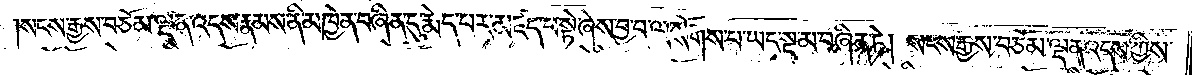སངས་རྒྱས་བཅོམ་ལྡན་འདས་རྣམས་ནི་མཁྱེན་བཞིན་དུ་རྨེད་པར་མཛད་པ་སྟེ་ཞེས་བྱ་བ་ལ་སོགས་པ་ཡང་སྔ་མ་བཞིན་ཏེ། སངས་རྒྱས་བཅོམ་ལྡན་འདས་ཀྱིས་
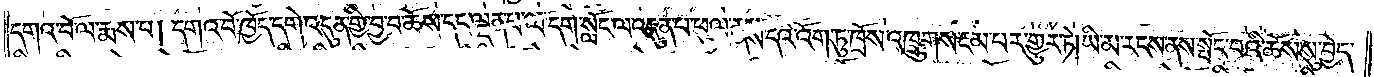དགའ་བོ་ལ་རྨས་པ། དགའ་བོ་ཁྱོད་དགེ་འདུན་གྱི་བྱ་བ་ཆོས་དང་ལྡན་པ་ལ་དགེ་སློང་ལ་འདུན་པ་ཕུལ་ནས་དེའི་འོག་ཏུ་ཁྲོས་འཁྲུགས་རྔམ་པར་གྱུར་ཏེ། ཡི་མ་རངས་ནས་སྤོང་བའི་ཆོས་སུ་བྱེད་
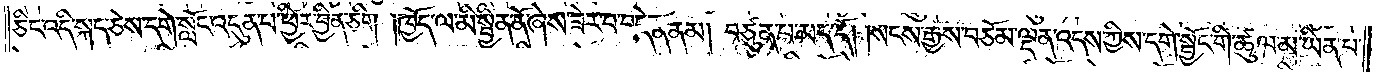ཅིང་འདི་སྐད་ཅེས་དགེ་སློང་འདུན་པ་ཕྱིར་བྱིན་ཅིག །ཁྱོད་ལ་མི་སྦྱིན་ནོ་ཞེས་ཟེར་བ་བདེན་ནམ། བཙུན་པ་མད་དོ། །སངས་རྒྱས་བཅོམ་ལྡན་འདས་ཀྱིས་དགེ་སྦྱོང་གི་ཚུལ་མ་ཡིན་པ་
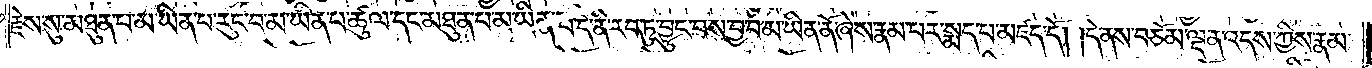རྗེས་སུ་མཐུན་པ་མ་ཡིན་པ་རུང་བ་མ་ཡིན་པ་ཚུལ་དང་མཐུན་པ་མ་ཡིན་པ་དེ་ནི་རབ་ཏུ་བྱུང་བས་བྱ་བ་མ་ཡིན་ནོ་ཞེས་རྣམ་པར་སྨད་པ་མཛད་དོ། །དེ་ནས་བཅོམ་ལྡན་འདས་ཀྱིས་རྣམ་
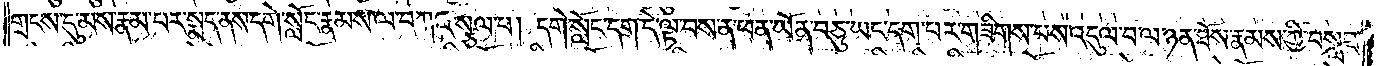གྲངས་དུ་མས་རྣམ་པར་སྨད་ནས་དགེ་སློང་རྣམས་ལ་བཀའ་སྩལ་པ། དགེ་སློང་དག་དེ་ལྟ་བས་ན་ཕན་ཡོན་བཅུ་ཡང་དག་པར་གཟིགས་པས་འདུལ་བ་ལ་ཉན་ཐོས་རྣམས་ཀྱི་བསླབ་
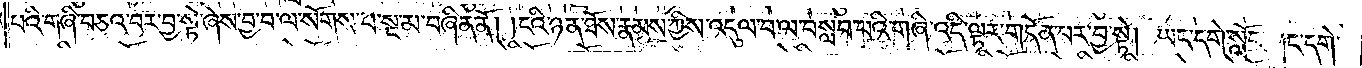པའི་གཞི་བཅའ་བར་བྱ་སྟེ་ཞེས་བྱ་བ་ལ་སོགས་པ་སྔ་མ་བཞིན་ནོ། །ངའི་ཉན་ཐོས་རྣམས་ཀྱིས་འདུལ་བ་ལ་བསླབ་པའི་གཞི་འདི་ལྟར་གདོན་པར་བྱ་སྟེ། ཡང་དགེ་སློང་གང་དགེ་
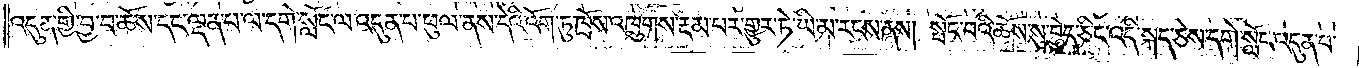འདུན་གྱི་བྱ་བ་ཆོས་དང་ལྡན་པ་ལ་དགེ་སློང་ལ་འདུན་པ་ཕུལ་ནས་དེའི་འོག་ཏུ་ཁྲོས་འཁྲུགས་རྔམ་པར་གྱུར་ཏེ་ཡི་མ་རངས་ནས། སྤོང་བའི་ཆོས་སུ་བྱེད་ཅིང་འདི་སྐད་ཅེས་དགེ་སློང་འདུན་པ་
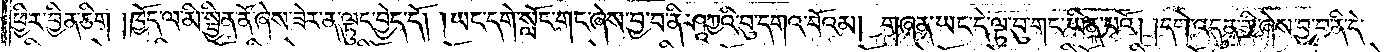ཕྱིར་བྱིན་ཅིག །ཁྱོད་ལ་མི་སྦྱིན་ནོ་ཞེས་ཟེར་ན་ལྟུང་བྱེད་དོ། །ཡང་དགེ་སློང་གང་ཞེས་བྱ་བ་ནི་ཤཱཀྱའི་བུ་དགའ་བོའམ། གཞན་ཡང་དེ་ལྟ་བུ་གང་ཡིན་པའོ། །དགེ་འདུན་གྱི་ཞེས་བྱ་བ་ནི་དེ་
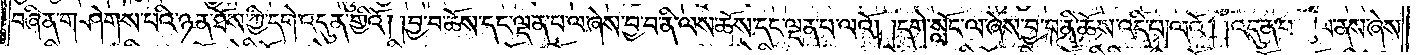བཞིན་གཤེགས་པའི་ཉན་ཐོས་ཀྱི་དགེ་འདུན་གྱིའོ། །བྱ་བ་ཆོས་དང་ལྡན་པ་ལ་ཞེས་བྱ་བ་ནི་ལས་ཆོས་དང་ལྡན་པ་ལའོ། །དགེ་སློང་ལ་ཞེས་བྱ་བ་ནི་ཆོས་འདི་པ་ལའོ། །འདུན་པ་ཕུལ་ནས་ཞེས་
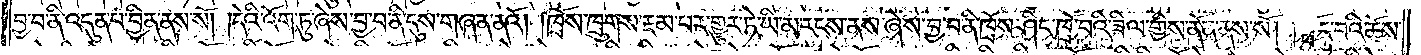བྱ་བ་ནི་འདུན་པ་བྱིན་ནས་སོ། །དེའི་འོག་ཏུ་ཞེས་བྱ་བ་ནི་དུས་གཞན་ནའོ། །ཁྲོས་ཁྲུགས་རྔམ་པར་གྱུར་ཏེ་ཡི་མ་རངས་ནས་ཞེས་བྱ་བ་ནི་ཁྲོས་ཤིང་ཁྲོ་བའི་ཟིལ་གྱིས་ནོན་ནས་སོ། །སྤོང་བའི་ཆོས་
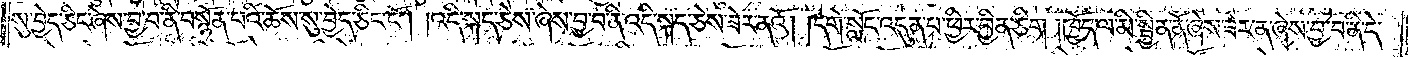སུ་བྱེད་ཅིང་ཞེས་བྱ་བ་ནི་བསྙོན་པའི་ཆོས་སུ་བྱེད་ཅིང་ངོ༌། །འདི་སྐད་ཅེས་ཞེས་བྱ་བ་ནི་འདི་སྐད་ཅེས་ཟེར་ནའོ། །དགེ་སློང་འདུན་པ་ཕྱིར་བྱིན་ཅིག །ཁྱོད་ལ་མི་སྦྱིན་ནོ་ཞེས་ཟེར་ན་ཞེས་བྱ་བ་ནི་དེ་
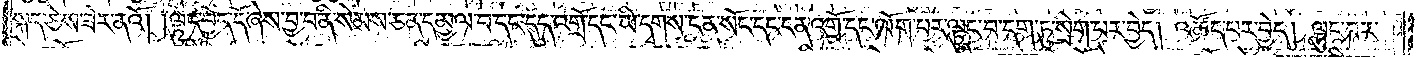སྐད་ཅེས་ཟེར་ནའོ། །ལྟུང་བྱེད་དོ་ཞེས་བྱ་བ་ནི་སེམས་ཅན་དམྱལ་བ་དང་དུད་འགྲོ་དང་ཡི་དྭགས་ངན་སོང་དང་ངན་འགྲོ་དང་ལོག་པར་ལྟུང་བ་དག་ཏུ་སྲེག་པར་བྱེད། འཚོད་པར་བྱེད། ལྟུང་བར་
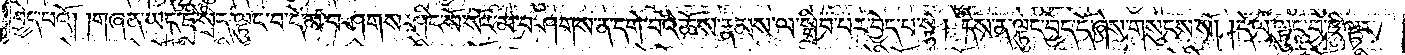བྱེད་པའོ། །གཞན་ཡང་ཇི་སྲིད་ལྟུང་བ་དེ་མ་བཤགས་ཤིང་སོ་སོར་མ་བཤགས་ན་དགེ་བའི་ཆོས་རྣམས་ལ་སྒྲིབ་པར་བྱེད་པ་སྟེ། དེས་ན་ལྟུང་བྱེད་དོ་ཞེས་གསུངས་སོ། །དེ་ལ་ལྟུང་བ་ཇི་ལྟར་
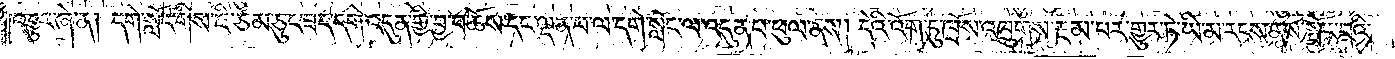འགྱུར་ཞེ་ན། དགེ་སློང་གིས་ཇི་ཙམ་ཅུང་ཟད་དགེ་འདུན་གྱི་བྱ་བ་ཆོས་དང་ལྡན་པ་ལ་དགེ་སློང་ལ་འདུན་པ་ཕུལ་ནས། དེའི་འོག་ཏུ་ཁྲོས་ཁྲུགས་རྔམ་པར་གྱུར་ཏེ་ཡི་མ་རངས་ནས་སྤོང་བའི་
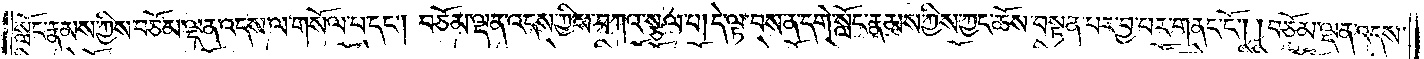སློང་རྣམས་ཀྱིས་བཅོམ་ལྡན་འདས་ལ་གསོལ་པ་དང༌། བཅོམ་ལྡན་འདས་ཀྱིས་བཀའ་སྩལ་པ། དེ་ལྟ་བས་ན་དགེ་སློང་རྣམས་ཀྱིས་ཀྱང་ཆོས་བསྟན་པར་བྱ་བར་གནང་ངོ༌། །བཅོམ་ལྡན་འདས་
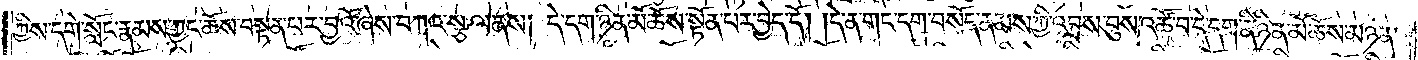ཀྱིས་དགེ་སློང་རྣམས་ཀྱང་ཆོས་བསྟན་པར་བྱའོ་ཞེས་བཀའ་སྩལ་ནས། དེ་དག་ཉིན་མོ་ཆོས་སྟོན་པར་བྱེད་དོ། །དེ་ན་གང་དག་བསོད་ནམས་ཀྱི་འབྲས་བུ་འཚོ་བ་དེ་དག་ནི་ཉིན་མོ་ཆོས་མཉན་
